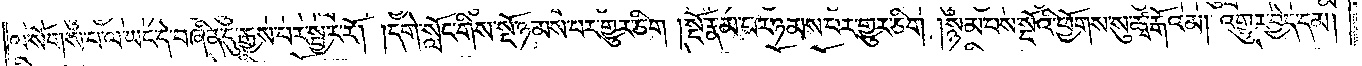ལ་སོགས་པ་ལ་ཡང་དེ་བཞིན་དུ་རྒྱས་པར་སྦྱར་རོ། །དགེ་སློང་གིས་སྔོ་ཉམས་པར་གྱུར་ཅིག །སྔོ་རྣམ་པར་ཉམས་པར་གྱུར་ཅིག །སྙམ་པས་སྔོའི་ཕྱོགས་སུ་ཚྭ་རྒོའམ། འགྱུར་བྱེད་དམ།
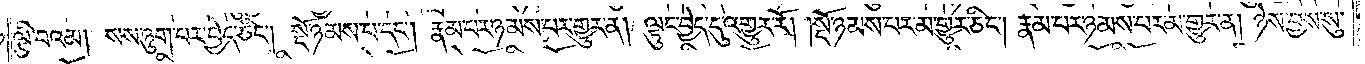ལྕི་བའམ། སས་ཉུག་པར་བྱེད་ཅིང༌། སྔོ་ཉམས་པ་དང༌། རྣམ་པར་ཉམས་པར་གྱུར་ན། ལྟུང་བྱེད་དུ་འགྱུར་རོ། །སྔོ་ཉམས་པར་མ་གྱུར་ཅིང༌། རྣམ་པར་ཉམས་པར་མ་གྱུར་ན། ཉེས་བྱས་སུ་
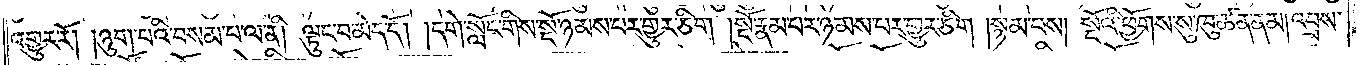འགྱུར་རོ། །ཉུག་པའི་བསམ་པ་ལ་ནི། ལྟུང་བ་མེད་དོ། །དགེ་སློང་གིས་སྔོ་ཉམས་པར་གྱུར་ཅིག །སྔོ་རྣམ་པར་ཉམས་པར་གྱུར་ཅིག །སྙམ་པས། སྔོའི་ཕྱོགས་སུ་ཁུ་ཚན་ནམ། འབྲས་
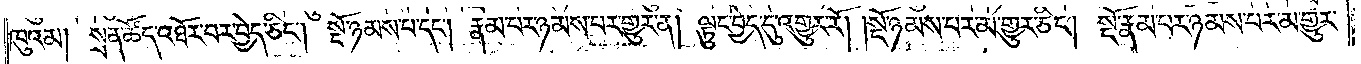ཁུའམ། སྲན་ཚོད་འཐོར་བར་བྱེད་ཅིང༌། སྔོ་ཉམས་པ་དང༌། རྣམ་པར་ཉམས་པར་གྱུར་ན། ལྟུང་བྱེད་དུ་འགྱུར་རོ། །སྔོ་ཉམས་པར་མ་གྱུར་ཅིང༌། སྔོ་རྣམ་པར་ཉམས་པར་མ་གྱུར་
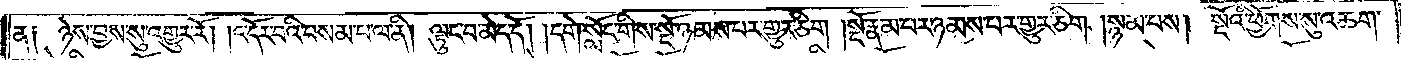ན། ཉེས་བྱས་སུ་འགྱུར་རོ། །འདོར་བའི་བསམ་པ་ལ་ནི། ལྟུང་བ་མེད་དོ། །དགེ་སློང་གིས་སྔོ་ཉམས་པར་གྱུར་ཅིག །སྔོ་རྣམ་པར་ཉམས་པར་གྱུར་ཅིག །སྙམ་པས། སྔོའི་ཕྱོགས་སུ་འཆག་
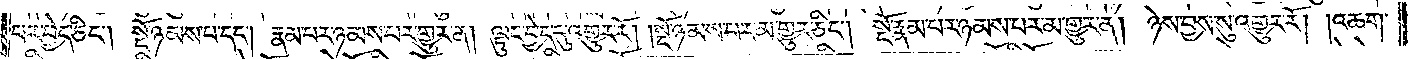པར་བྱེད་ཅིང༌། སྔོ་ཉམས་པ་དང༌། རྣམ་པར་ཉམས་པར་གྱུར་ན། ལྟུང་བྱེད་དུ་འགྱུར་རོ། །སྔོ་ཉམས་པར་མ་གྱུར་ཅིང༌། སྔོ་རྣམ་པར་ཉམས་པར་མ་གྱུར་ན། ཉེས་བྱས་སུ་འགྱུར་རོ། །འཆག་
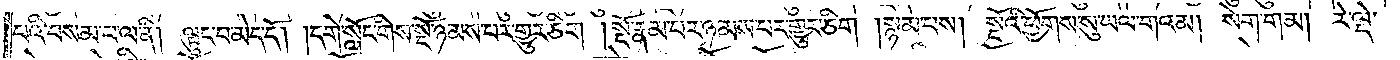པའི་བསམ་པ་ལ་ནི། ལྟུང་བ་མེད་དོ། །དགེ་སློང་གིས་སྔོ་ཉམས་པར་གྱུར་ཅིག །སྔོ་རྣམ་པར་ཉམས་པར་གྱུར་ཅིག །སྙམ་པས། སྔོའི་ཕྱོགས་སུ་ཡལ་གའམ། སེག་གམ། རེ་ལྡེ་
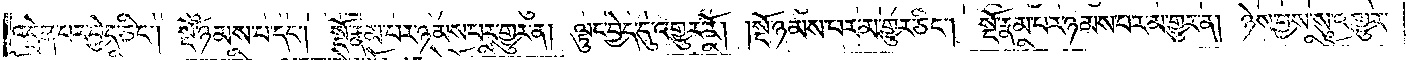འདྲེན་པར་བྱེད་ཅིང༌། སྔོ་ཉམས་པ་དང༌། སྔོ་རྣམ་པར་ཉམས་པར་གྱུར་ན། ལྟུང་བྱེད་དུ་འགྱུར་རོ། །སྔོ་ཉམས་པར་མ་གྱུར་ཅིང༌། སྔོ་རྣམ་པར་ཉམས་པར་མ་གྱུར་ན། ཉེས་བྱས་སུ་འགྱུར་
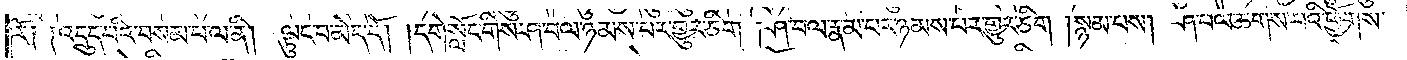རོ། །འདྲུད་པའི་བསམ་པ་ལ་ནི། ལྟུང་བ་མེད་དོ། །དགེ་སློང་གིས་ཤ་བལ་ཉམས་པར་གྱུར་ཅིག། ཤ་བལ་རྣམ་པར་ཉམས་པར་གྱུར་ཅིག། སྙམ་པས། ཤ་བལ་ཆགས་པའི་ཕྱོགས་
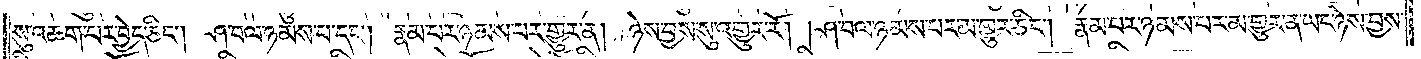སུ་འཆག་པར་བྱེད་ཅིང༌། ཤ་བལ་ཉམས་པ་དང༌། རྣམ་པར་ཉམས་པར་གྱུར་ན། ཉེས་བྱས་སུ་འགྱུར་རོ། །ཤ་བལ་ཉམས་པར་མ་གྱུར་ཅིང༌། རྣམ་པར་ཉམས་པར་མ་གྱུར་ན་ཡང་ཉེས་བྱས་
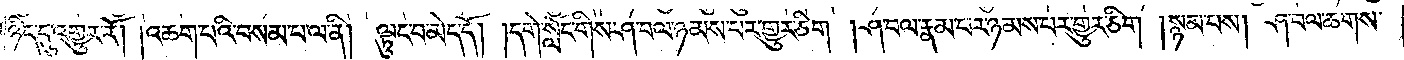ཉིད་དུ་འགྱུར་རོ། །འཆག་པའི་བསམ་པ་ལ་ནི། ལྟུང་བ་མེད་དོ། །དགེ་སློང་གིས་ཤ་བལ་ཉམས་པར་གྱུར་ཅིག །ཤ་བལ་རྣམ་པར་ཉམས་པར་གྱུར་ཅིག །སྙམ་པས། ཤ་བལ་ཆགས་
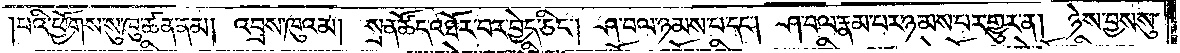པའི་ཕྱོགས་སུ་ཁུ་ཚན་ནམ། འབྲས་ཁུའམ། སྲན་ཚོད་འཐོར་བར་བྱེད་ཅིང༌། ཤ་བལ་ཉམས་པ་དང༌། ཤ་བལ་རྣམ་པར་ཉམས་པར་གྱུར་ན། ཉེས་བྱས་སུ་
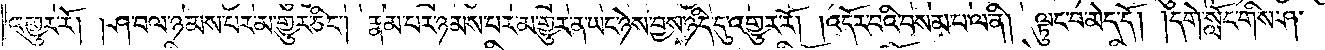འགྱུར་རོ། །ཤ་བལ་ཉམས་པར་མ་གྱུར་ཅིང༌། རྣམ་པར་ཉམས་པར་མ་གྱུར་ན་ཡང་ཉེས་བྱས་ཉིད་དུ་འགྱུར་རོ། །འདོར་བའི་བསམ་པ་ལ་ནི། ལྟུང་བ་མེད་དོ། །དགེ་སློང་གིས་ཤ་
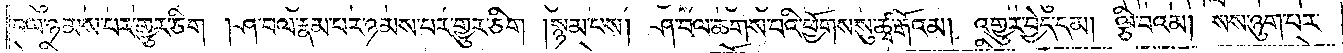བལ་ཉམས་པར་གྱུར་ཅིག །ཤ་བལ་རྣམ་པར་ཉམས་པར་གྱུར་ཅིག །སྙམ་པས། ཤ་བལ་ཆགས་པའི་ཕྱོགས་སུ་ཚྭ་རྒོའམ། འགྱུར་བྱེད་དམ། ལྕི་བའམ། སས་ཉུག་པར་
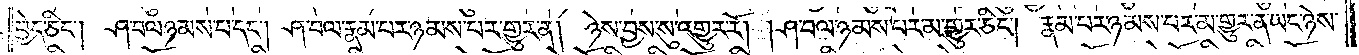བྱེད་ཅིང༌། ཤ་བལ་ཉམས་པ་དང༌། ཤ་བལ་རྣམ་པར་ཉམས་པར་གྱུར་ན། ཉེས་བྱས་སུ་འགྱུར་རོ། །ཤ་བལ་ཉམས་པར་མ་གྱུར་ཅིང༌། རྣམ་པར་ཉམས་པར་མ་གྱུར་ན་ཡང་ཉེས་
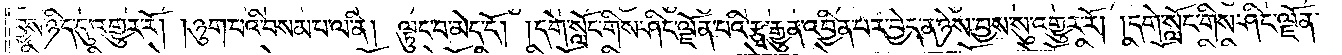བྱས་ཉིད་དུ་འགྱུར་རོ། །ཉུག་པའི་བསམ་པ་ལ་ནི། ལྟུང་བ་མེད་དོ། །དགེ་སློང་གིས་ཤིང་ལྗོན་པའི་རྩྭ་རྒྱུན་འབྱིན་པར་བྱེད་ན་ཉེས་བྱས་སུ་འགྱུར་རོ། །དགེ་སློང་གིས་ཤིང་ལྗོན་
